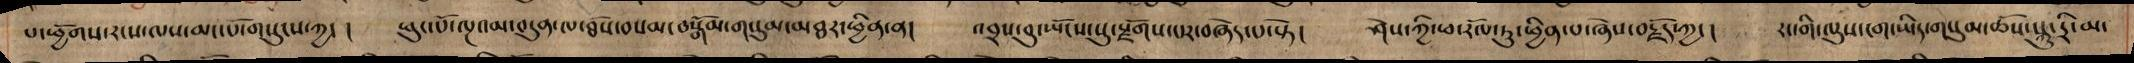པ་ཕྱོགས་རངས་ལས་མང་པོ་གསུངས་ཀྱང ། ཕུང་པོ་ལྔའམ་བདུན་ལ་ཐོས་བསམ་བསྒོམ་གསུམ་མཐར་ཕྱིན་ན། འབྲས་བུ་ཡོངས་སུ་སྫོགས་པར་བཞེད་པ་སྟེ། ཤེས་ཀྱི་ཕ་རོལ་ཏུ་ཕྱིན་པ་ཞེས་བརྗོད་ཀྱང། རང་གི་ལུས་ངག་ཡིད་གསུམ་ཆོས་སྐུ་དརི་མ་
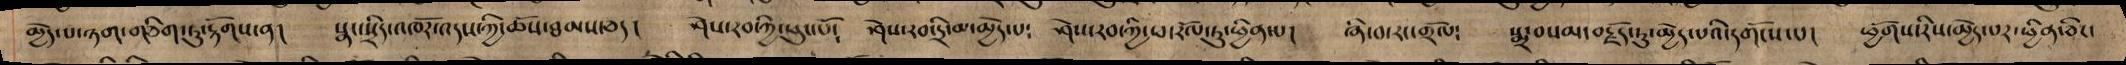མྱེད་པ་ཉག་གཅིག་ཏུ་རྟོགས་ན། སྣང་སྲིད་འཁོར་འདས་ཀྱི་ཆོས་ཐམས་ཅད། ཤེས་རབ་ཀྱི་ཕུང་པོ༴ ཤེས་རབ་དྲི་མ་མྱེད་པ༴ ཤེས་རབ་ཀྱི་ཕ་རོལ་ཏུ་ཕྱིན་པ། ཞི་བ་རང་གྲོལ: སྨྲ་བསམ་བརྗོད་ཏུ་མྱེད་པའི་དགོངས་པ། ཕྱོགས་རིས་མྱེད་པར་ཕྱིན་ཅིང་
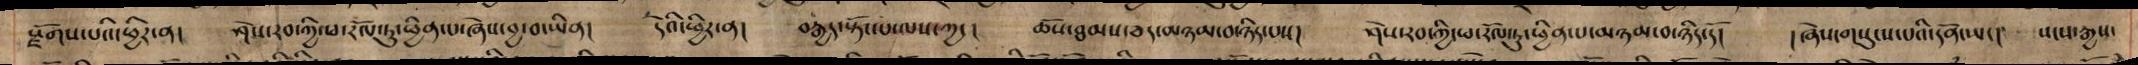སྫོགས་པའི་ཕྱིར་ན། ཤེས་རབ་ཀྱི་ཕ་རོལ་ཏུ་ཕྱིན་པ་ཞེས་བྱ་བ་ཡིན། དེའི་ཕྱིར་ན། བརྒྱད་སྟོང་པ་ལས་ཀྱང། ཆོས་ཐམས་ཅད་མཉམ་བ་ཉིད་པས། ཤེས་རབ་ཀྱི་ཕ་རོལ་ཏུ་ཕྱིན་པ་མཉམ་བ་ཉིད་དོ། །ཞེས་གསུངས་པའི་དོན་ཡང། སངས་རྒྱས་
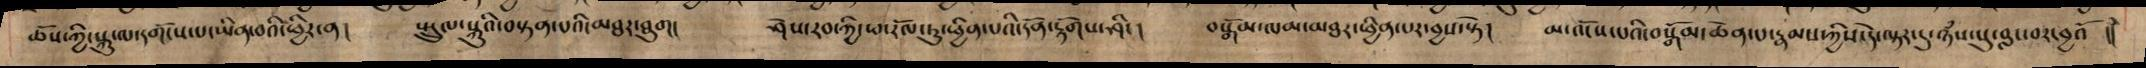ཆོས་ཀྱི་སྐུ་ལ་དགོངས་པ་ཡིན་བའི་ཕྱིར་ན། སྤྲུལ་སྐུའི་བསྟན་པའི་མཐར་ཐུག། ཤེས་རབ་ཀྱི་ཕ་རོལ་ཏུ་ཕྱིན་པའི་དོན་རྟོགས་ཤིང། བསྒོམ་ལམ་མཐར་ཕྱིན་པར་བྱས་སྟེ། མ་འོངས་པའི་བསྒོམ་ཆེན་པ་རྣམས་ཀྱིས་དེ་ལྟར་དུ་ཉཾས་སུ་བླང་བར་བྱའོ །།
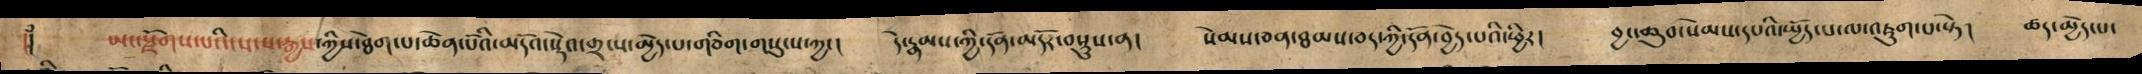།། ཡང་སྫོགས་པའི་སངས་རྒྱས་ཀྱིས་ཐེག་པ་ཆེན་པོའི་མདོའ་སྡེའ་གྲངས་མྱེད་པ་གཅིག་གསུངས་ཀྱང། དེ་རྣམས་ཀྱི་དོན་མདོར་བསྡུས་ན། སེམས་ཅན་ཐམས་ཅད་ཀྱི་དོན་བྱེད་པའི་ཕྱིར། བྱང་ཆུབ་སེམས་དཔའི་སྤྱོད་པ་ལ་འཇུག་པ་སྟེ། ཚད་མྱེད་པ་
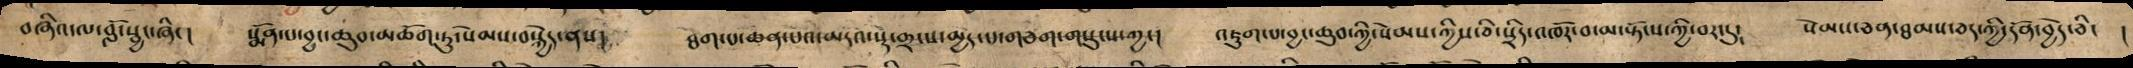བཞིའ་ལ་བློ་སྦྱང་ཞིང། སྨོན་པ་བྱང་ཆུབ་མཆོག་ཏུ་སེམས་བསྐྱེད་ནས། ཐེག་པ་ཆེན་པོའི་རྒྱུད་མདོའ་སྡེ་གྲངས་མྱེད་པ་གཅིག་གསུངས་ཀྱང། འཇུག་པ་བྱང་ཆུབ་ཀྱི་སེམས་ཀྱིས་ཅི་སྲིད་འཁོར་བ་མ་སྟོངས་ཀྱི་བར་དུ། སེམས་ཅན་ཐམས་ཅད་ཀྱི་དོན་བྱེད་ཅིང །
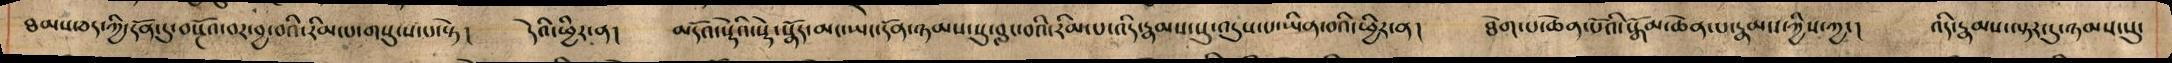ཐམས་ཅད་ཀྱི་དོན་དུ་བསྔོའ་བར་བྱ་བའི་རིམ་པ་གསུངས་པ་སྟེ། དེའི་ཕྱིར་ན། མདོའ་སྡེའི་སྡེ་སྣོད་མང་ཡང་དོན་ཉམས་སུ་བླང་བའི་རིམ་པ་འདི་རྣམས་སུ་འདུས་པ་ཡིན་བའི་ཕྱིར་ན། ཐེག་པ་ཆེན་པོའི་སྒོམ་ཆེན་པ་རྣམས་ཀྱིས་ཀྱང། འདི་རྣམས་ལྟར་དུ་ཉམས་སུ་
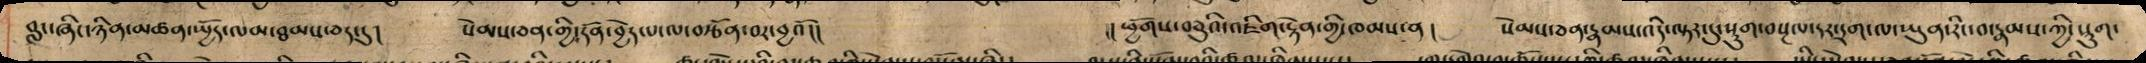བླང་ཞིང་ཉིན་མཚན་སྤྱོད་ལམ་ཐམས་ཅད་དུ། སེམས་ཅན་གྱི་དོན་བྱེད་པ་ལ་བརྩོན་བར་བྱའོ།། །།ཕྱོགས་བཅུའི་འཇིག་རྟེན་གྱི་ཁམས་ན། སེམས་ཅན་རྣམས་འདི་ལྟར་དི་སྡུག་བསྔལ་དར་དྲག་ལ་ཡུན་རིང་བ་རྣམས་ཀྱི་སྡུག་
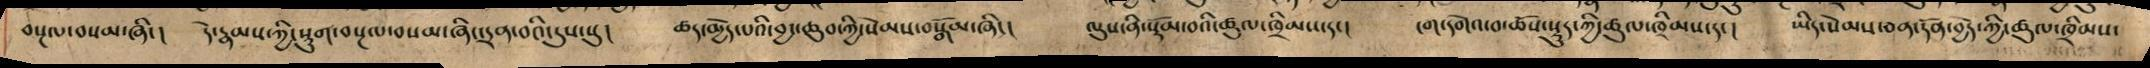བསྔལ་བསམ་ཞིང། དེ་རྣམས་ཀྱི་སྡུག་བསྔལ་བསམ་ཞིང་དྲབ་བའི་དུས་སུ། ཚད་མྱེད་པའི་བྱང་ཆུབ་ཀྱི་སེམས་བསྒོམ་ཞིང། ལུས་ནི་སྡོམ་བའི་ཚུལ་ཁྲིམས་དང། ངག་དགེའ་བ་ཆོས་སྡུད་ཀྱི་ཚུལ་ཁྲིམས་དང། ཡིད་སེམས་ཅན་དོན་བྱེད་ཀྱི་ཚུལ་ཁྲིམས་
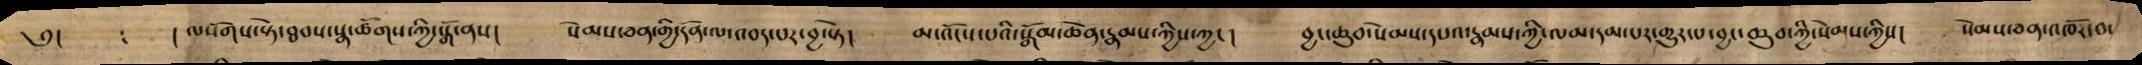༅། ། ལསོགས་སྟེ་ཐབས་སྣ་ཚོགས་ཀྱི་སྒོ་ནས། སེམས་ཅན་གྱི་དོན་ལ་འབད་པར་བྱ་སྟེ། མ་འོངས་པའི་སྒོམ་ཆེན་རྣམས་ཀྱིས་ཀྱང། བྱང་ཆུབ་སེམས་དཔའ་རྣམས་ཀྱི་ལམ་དམ་པར་གྱུར་པ་བྱང་ཆུབ་ཀྱི་སེམས་ཀྱིས། སེམས་ཅན་འཁོར་བ་
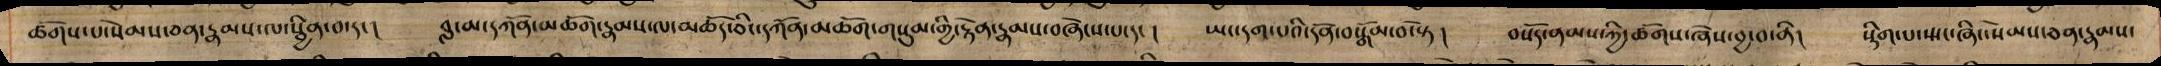ཚོགས་པ་སེམས་ཅན་རྣམས་ལ་སྦྱིན་བ་དང། བླ་མ་དཀོན་མཆོག་རྣམས་ལ་མཆོད་ཅིང་དཀོན་མཆོག་གསུམ་གྱི་རྟེན་རྣམས་བཞེངས་པ་དང། ཡང་དག་པའི་དོན་བསྒོམ་བ་སྟེ། བསོད་ནམས་ཀྱི་ཚོགས་ཞེས་བྱ་བ་ནི། སྡིག་པ་ཡང་ཞིང་སེམས་ཅན་རྣམས་
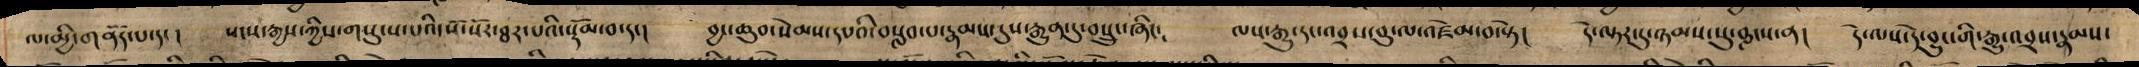ལ་མྱི་གནོད་པ་དང། སངས་རྒྱས་ཀྱིས་གསུངས་པའི་སོ་སོར་ཐར་པའི་སྡོམ་བ་དང། བྱང་ཆུབ་སེམས་དཔའི་བསླབ་རྣམས་དུས་རྒྱུན་དུ་བསྲུང་ཞིང༴ ལས་རྒྱུ་དང་འབྲས་བུ་ལ་འཛེམ་བ་སྟེ། དེ་ལྟར་དུ་ཉམས་སུ་བླངས་ན། དེ་ལས་དེ་བྱུང་གི་རྒྱུ་འབྲས་རྣམས་
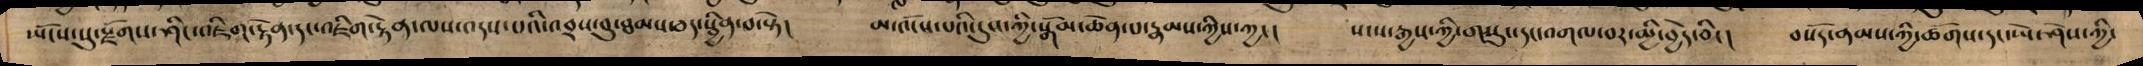ཡོངས་སུ་སྫོགས་ཤིང་འཇིག་རྟེན་དང་འཇིག་རྟེན་ལས་འདས་པའི་འབྲས་བུ་ཐམས་ཅད་སྦྱིན་བ་སྟེ། མ་འོངས་དུས་ཀྱི་སྒོམ་ཆེན་པ་རྣམས་ཀྱིས་ཀྱང། སངས་རྒྱས་ཀྱི་གསུང་དང་འགལ་བར་མྱི་བྱེད་ཅིང། བསོད་ནམས་ཀྱི་ཚོགས་དང་ཡེ་ཤེས་ཀྱི་
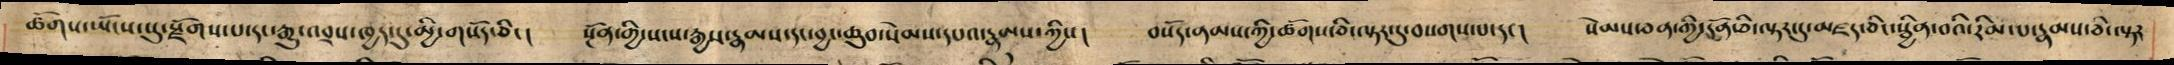ཚོགས་ཡོངས་སུ་སྫོགས་པ་དང་རྒྱུ་འབྲས་ཁྱད་དུ་མྱི་གསོད་ཅིང། སྔོན་གྱི་སངས་རྒྱས་རྣམས་དང་བྱང་ཆུབ་སེམས་དཔའ་རྣམས་ཀྱིས། བསོད་ནམས་ཀྱི་ཚོགས་ཅི་ལྟར་ད་བསགས་པ་དང། སེམས་ཅན་གྱི་དོན་ཅི་ལྟར་དུ་མཛད་ཅིང་སྦྱིན་བའི་རིམ་པ་རྣམས་ཅི་ལྟར
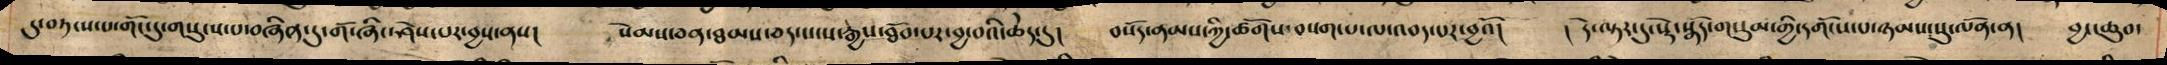དུ་བཏངས་པ་གོང་དུ་གསུངས་པ་བཞིན་དུ་གོ་ཞཱིང་ཤེས་པར་བྱས་ནས། སེམས་ཅན་ཐམས་ཅད་སངས་རྒྱས་ཐོབ་པར་བྱ་བའི་ཆེད་དུ་ཚོགས་བསག་པ་ལ་འབད་པར་བྱའོ། ། དེ་ལྟར་དུ་སྡེ་སྣོད་གསུམ་གྱི་དགོངས་པ་ཉམས་སུ་ལེན་ན། བྱང་ཆུབ་
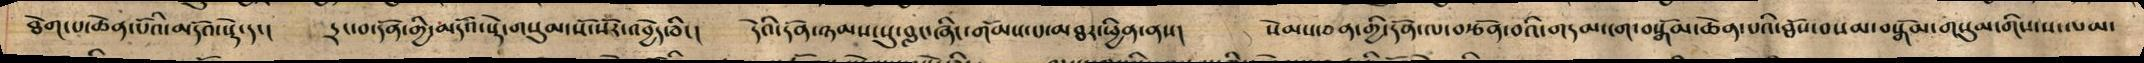ཐེག་པ་ཆེན་པོའི་མདོའ་སྡེ་དང། དྲང་བ་དོན་གྱི་མདོའ་སྡེ་གསུམ་སོ་སོར་འབྱེད་ཅིང། དེའི་དོན་ཉམས་སུ་བླང་ཞིང་གོམས་པ་མཐར་ཕྱིན་ནས། སེམས་ཅན་གྱི་དོན་ལ་བརྩོན་བའི་གདམ་ངག་བསྒོམ་ཆེན་པའི་ཐོས་བསམ་བསྒོམ་གསུམ་གིས་ས་ལམ་
